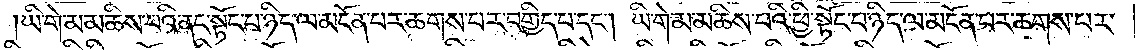ཡི་གེ་མ་མཆིས་པའི་ནང་སྟོང་པ་ཉིད་ལ་མངོན་པར་ཆགས་པར་བགྱིད་པ་དང༌། ཡི་གེ་མ་མཆིས་པའི་ཕྱི་སྟོང་པ་ཉིད་ལ་མངོན་པར་ཆགས་པར་
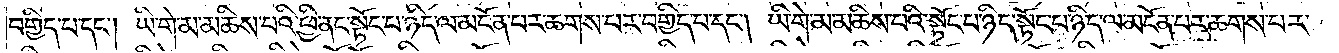བགྱིད་པ་དང༌། ཡི་གེ་མ་མཆིས་པའི་ཕྱི་ནང་སྟོང་པ་ཉིད་ལ་མངོན་པར་ཆགས་པར་བགྱིད་པ་དང༌། ཡི་གེ་མ་མཆིས་པའི་སྟོང་པ་ཉིད་སྟོང་པ་ཉིད་ལ་མངོན་པར་ཆགས་པར་
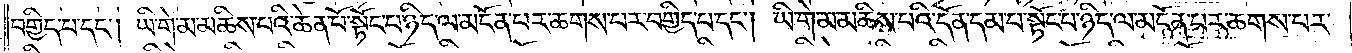བགྱིད་པ་དང༌། ཡི་གེ་མ་མཆིས་པའི་ཆེན་པོ་སྟོང་པ་ཉིད་ལ་མངོན་པར་ཆགས་པར་བགྱིད་པ་དང༌། ཡི་གེ་མ་མཆིས་པའི་དོན་དམ་པ་སྟོང་པ་ཉིད་ལ་མངོན་པར་ཆགས་པར་
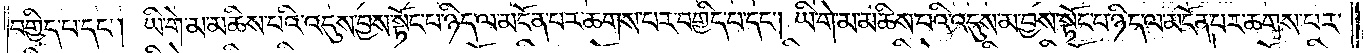བགྱིད་པ་དང༌། ཡི་གེ་མ་མཆིས་པའི་འདུས་བྱས་སྟོང་པ་ཉིད་ལ་མངོན་པར་ཆགས་པར་བགྱིད་པ་དང༌། ཡི་གེ་མ་མཆིས་པའི་འདུས་མ་བྱས་སྟོང་པ་ཉིད་ལ་མངོན་པར་ཆགས་པར་
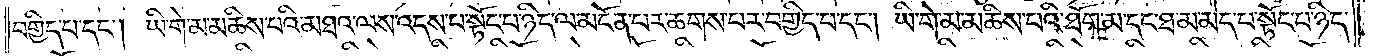བགྱིད་པ་དང༌། ཡི་གེ་མ་མཆིས་པའི་མཐའ་ལས་འདས་པ་སྟོང་པ་ཉིད་ལ་མངོན་པར་ཆགས་པར་བགྱིད་པ་དང༌། ཡི་གེ་མ་མཆིས་པའི་ཐོག་མ་དང་ཐ་མ་མེད་པ་སྟོང་པ་ཉིད་
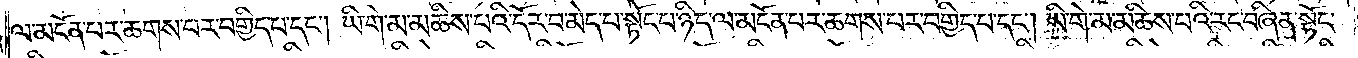ལ་མངོན་པར་ཆགས་པར་བགྱིད་པ་དང༌། ཡི་གེ་མ་མཆིས་པའི་དོར་བ་མེད་པ་སྟོང་པ་ཉིད་ལ་མངོན་པར་ཆགས་པར་བགྱིད་པ་དང༌། ཡི་གེ་མ་མཆིས་པའི་རང་བཞིན་སྟོང་
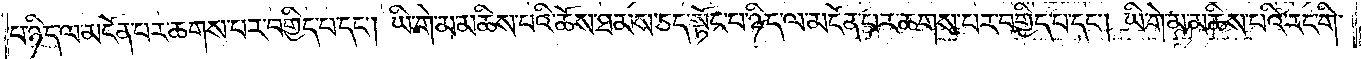པ་ཉིད་ལ་མངོན་པར་ཆགས་པར་བགྱིད་པ་དང༌། ཡི་གེ་མ་མཆིས་པའི་ཆོས་ཐམས་ཅད་སྟོང་པ་ཉིད་ལ་མངོན་པར་ཆགས་པར་བགྱིད་པ་དང༌། ཡི་གེ་མ་མཆིས་པའི་རང་གི་
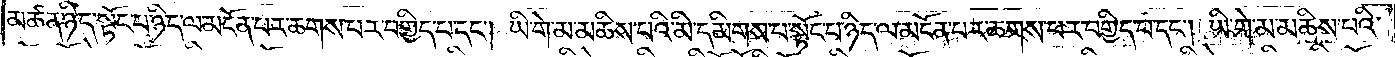མཚན་ཉིད་སྟོང་པ་ཉིད་ལ་མངོན་བར་ཆགས་པར་བགྱིད་པ་དང༌། ཡི་གེ་མ་མཆིས་པའི་མི་དམིགས་པ་སྟོང་པ་ཉིད་ལ་མངོན་པར་ཆགས་པར་བགྱིད་པ་དང༌། ཡི་གེ་མ་མཆིས་པའི་
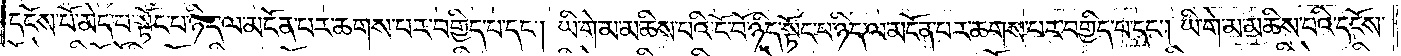དངོས་པོ་མེད་པ་སྟོང་པ་ཉིད་ལ་མངོན་པར་ཆགས་པར་བགྱིད་པ་དང༌། ཡི་གེ་མ་མཆིས་པའི་ངོ་བོ་ཉིད་སྟོང་པ་ཉིད་ལ་མངོན་པར་ཆགས་པར་བགྱིད་པ་དང༌། ཡི་གེ་མ་མཆིས་པའི་དངོས་
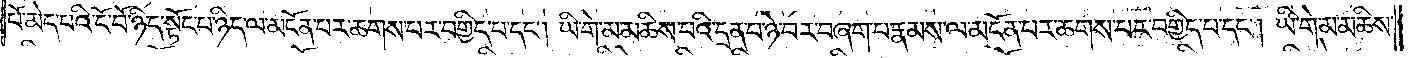པོ་མེད་པའི་ངོ་བོ་ཉིད་སྟོང་པ་ཉིད་ལ་མངོན་པར་ཆགས་པར་བགྱིད་པ་དང༌། ཡི་གེ་མ་མཆིས་པའི་དྲན་པ་ཉེ་བར་བཞག་པ་རྣམས་ལ་མངོན་པར་ཆགས་པར་བགྱིད་པ་དང༌། ཡི་གེ་མ་མཆིས་
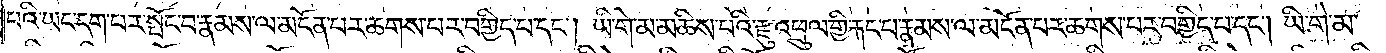པའི་ཡང་དག་པར་སྤོང་བ་རྣམས་ལ་མངོན་པར་ཆགས་པར་བགྱིད་པ་དང༌། ཡི་གེ་མ་མཆིས་པའི་རྫུ་འཕྲུལ་གྱི་རྐང་པ་རྣམས་ལ་མངོན་པར་ཆགས་པར་བགྱིད་པ་དང༌། ཡི་གེ་མ་
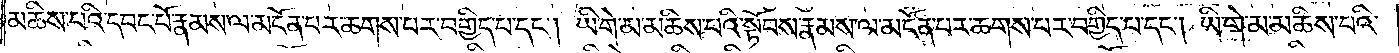མཆིས་པའི་དབང་པོ་རྣམས་ལ་མངོན་པར་ཆགས་བར་བགྱིད་པ་དང༌། ཡི་གེ་མ་མཆིས་པའི་སྟོབས་རྣམས་ལ་མངོན་པར་ཆགས་པར་བགྱིད་པ་དང༌། ཡི་གེ་མ་མཆིས་པའི་
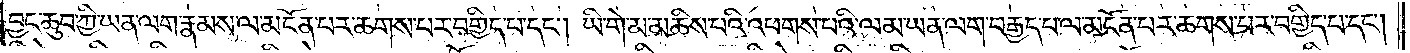བྱང་ཆུབ་ཀྱི་ཡན་ལག་རྣམས་ལ་མངོན་པར་ཆགས་པར་བགྱིད་པ་དང༌། ཡི་གེ་མ་མཆིས་པའི་འཕགས་པའི་ལམ་ཡན་ལག་བརྒྱད་པ་ལ་མངོན་པར་ཆགས་པར་བགྱིད་པ་དང༌།
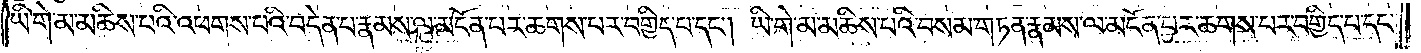ཡི་གེ་མ་མཆིས་པའི་འཕགས་པའི་བདེན་པ་རྣམས་ལ་མངོན་པར་ཆགས་པར་བགྱིད་པ་དང༌། ཡི་གེ་མ་མཆིས་པའི་བསམ་གཏན་རྣམས་ལ་མངོན་པར་ཆགས་པར་བགྱིད་པ་དང༌།
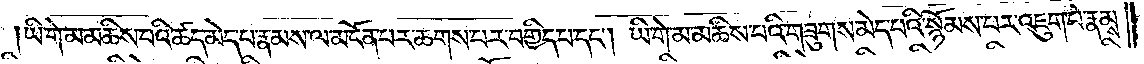ཡི་གེ་མ་མཆིས་པའི་ཚད་མེད་པ་རྣམས་ལ་མངོན་པར་ཆགས་པར་བགྱིད་པ་དང༌། ཡི་གེ་མ་མཆིས་པའི་གཟུགས་མེད་པའི་སྙོམས་པར་འཇུག་པ་རྣམས་
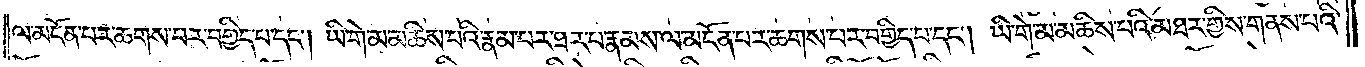ལ་མངོན་པར་ཆགས་པར་བགྱིད་པ་དང༌། ཡི་གེ་མ་མཆིས་པའི་རྣམ་པར་ཐར་པ་རྣམས་ལ་མངོན་པར་ཆགས་པར་བགྱིད་པ་དང༌། ཡི་གེ་མ་མཆིས་པའི་མཐར་གྱིས་གནས་པའི་
